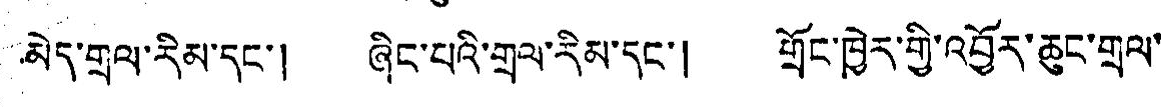མེད་གྲལ་རིམ་དང་། ཞིང་པའི་གྲལ་རིམ་དང་། གྲོང་ཁྱེར་གྱི་འབྱོར་ཆུང་གྲལ་
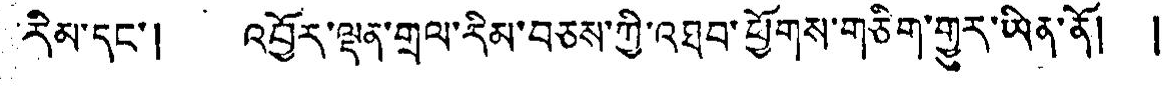རིམ་དང་། འབྱོར་ལྡན་གྲལ་རིམ་བཅས་ཀྱི་འཐབ་ཕྱོགས་གཅིག་གྱུར་ཡིན་ནོ། །
